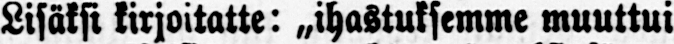Lisäksi kirjoitatte: „ ihastuksemme muuttui
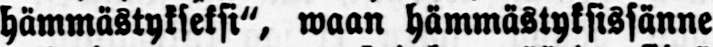hämmästykseksi", waan hämmästyksissänne
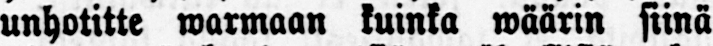unhotitte warmaan kuinka wäärin siinä
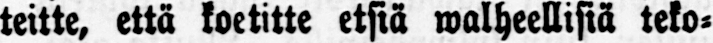teitte, että koetitte etsiä walheellisiä teko-
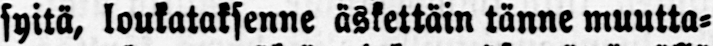syitä, loukataksenne äskettäin tänne muutta-
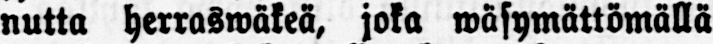nutta herraswäkeä, joka wäsymättömällä
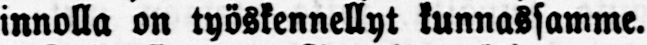innolla on työskennellyt kunnassamme.
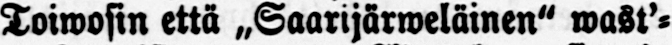Toiwosin että „Saarijärweläinen" wast'-
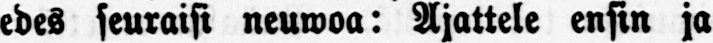edes seuraisi neuwoa: Ajattele ensin ja
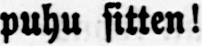puhu sitten!
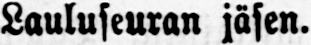Lauluseuran jäsen.
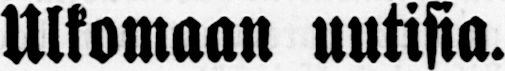Ulkomaan uutisia.
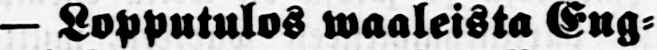— Lopputulos waaleista Eng-
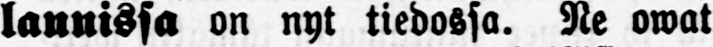lannissa on nyt tiedossa. Ne owat
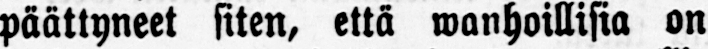päättyneet siten, että wanhoillisia on
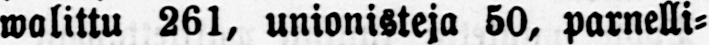walittu 261, unionisteja 50, parnelli-
